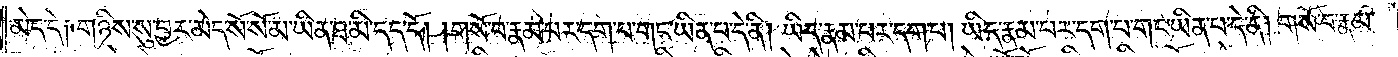མེད་དེ༑ གཉིས་སུ་བྱར་མེད་སོ་སོ་མ་ཡིན་ཐ་མི་དད་དོ། །གསོ་བ་རྣམ་པར་དག་པ་གང་ཡིན་པ་དེ་ནི། ཡིད་རྣམ་པར་དག་པ། ཡིད་རྣམ་པར་དག་པ་གང་ཡིན་པ་དེ་ནི། གསོ་བ་རྣམ་
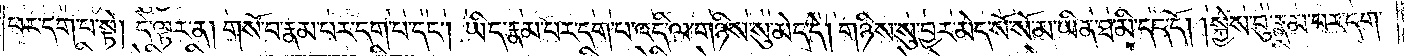པར་དག་པ་སྟེ། དེ་ལྟར་ན། གསོ་བ་རྣམ་པར་དག་པ་དང༌། ཡིད་རྣམ་པར་དག་པ་འདི་ལ་གཉིས་སུ་མེད་དེ། གཉིས་སུ་བྱར་མེད་སོ་སོ་མ་ཡིན་ཐ་མི་དད་དོ། །སྐྱེས་བུ་རྣམ་པར་དག་
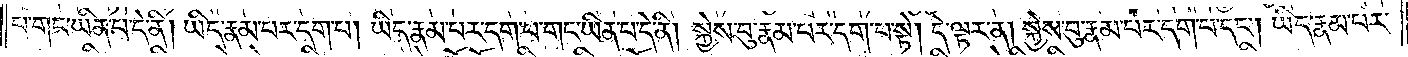པ་གང་ཡིན་པ་དེ་ནི། ཡིད་རྣམ་པར་དག་པ། ཡིད་རྣམ་པར་དག་པ་གང་ཡིན་པ་དེ་ནི། སྐྱེས་བུ་རྣམ་པར་དག་པ་སྟེ། དེ་ལྟར་ན། སྐྱེས་བུ་རྣམ་པར་དག་པ་དང༌། ཡིད་རྣམ་པར་
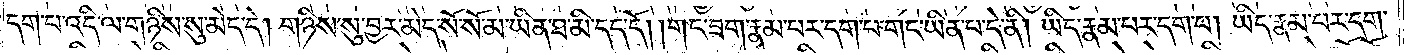དག་པ་འདི་ལ་གཉིས་སུ་མེད་དེ། གཉིས་སུ་བྱར་མེད་སོ་སོ་མ་ཡིན་ཐ་མི་དད་དོ། །གང་ཟག་རྣམ་པར་དག་པ་གང་ཡིན་པ་དེ་ནི། ཡིད་རྣམ་པར་དག་པ། ཡིད་རྣམ་པར་དག་
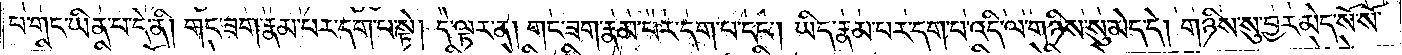པ་གང་ཡིན་པ་དེ་ནི། གང་ཟག་རྣམ་པར་དག་པ་སྟེ། དེ་ལྟར་ན། གང་ཟག་རྣམ་པར་དག་པ་དང༌། ཡིད་རྣམ་པར་དག་པ་འདི་ལ་གཉིས་སུ་མེད་དེ། གཉིས་སུ་བྱར་མེད་སོ་སོ་
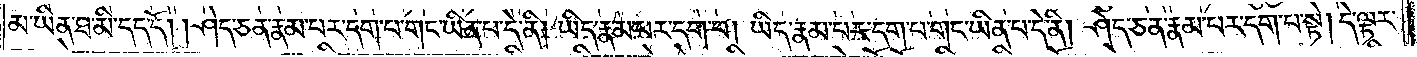མ་ཡིན་ཐ་མི་དད་དོ། །ཤེད་ཅན་རྣམ་པར་དག་པ་གང་ཡིན་པ་དེ་ནི། ཡིད་རྣམ་པར་དག་པ། ཡིད་རྣམ་པར་དག་པ་གང་ཡིན་པ་དེ་ནི། ཤེད་ཅན་རྣམ་པར་དག་པ་སྟེ། དེ་ལྟར་
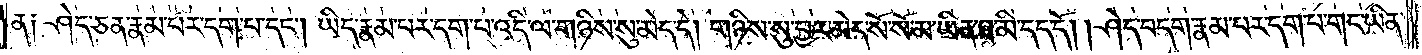ན༑ ཤེད་ཅན་རྣམ་པར་དག་པ་དང༌། ཡིད་རྣམ་པར་དག་པ་འདི་ལ་གཉིས་སུ་མེད་དེ། གཉིས་སུ་བྱར་མེད་སོ་སོ་མ་ཡིན་ཐ་མི་དད་དོ། །ཤེད་བདག་རྣམ་པར་དག་པ་གང་ཡིན་
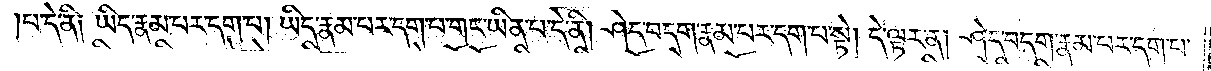པ་དེ་ནི༑ ཡིད་རྣམ་པར་དག་པ། ཡིད་རྣམ་པར་དག་པ་གང་ཡིན་པ་དེ་ནི། ཤེད་བདག་རྣམ་པར་དག་པ་སྟེ། དེ་ལྟར་ན། ཤེད་བདག་རྣམ་པར་དག་པ་
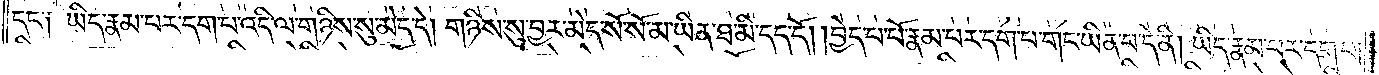དང་༑ ཡིད་རྣམ་པར་དག་པ་འདི་ལ་གཉིས་སུ་མེད་དེ། གཉིས་སུ་བྱར་མེད་སོ་སོ་མ་ཡིན་ཐ་མི་དད་དོ། །བྱེད་པ་པོ་རྣམ་པར་དག་པ་གང་ཡིན་པ་དེ་ནི། ཡིད་རྣམ་པར་དག་པ།
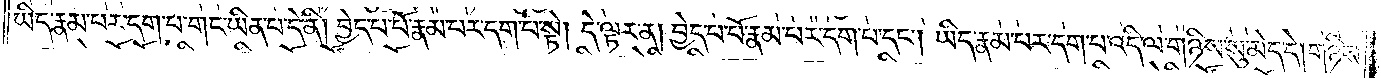ཡིད་རྣམ་པར་དག་པ་གང་ཡིན་པ་དེ་ནི། བྱེད་པ་པོ་རྣམ་པར་དག་པ་སྟེ། དེ་ལྟར་ན། བྱེད་པ་པོ་རྣམ་པར་དག་པ་དང༌། ཡིད་རྣམ་པར་དག་པ་འདི་ལ་གཉིས་སུ་མེད་དེ། གཉིས་
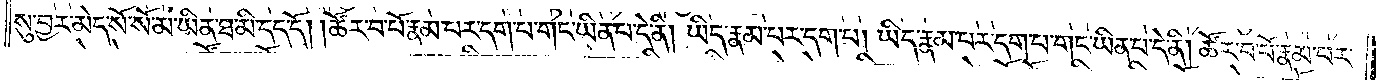སུ་བྱར་མེད་སོ་སོ་མ་ཡིན་ཐ་མི་དད་དོ། །ཚོར་བ་པོ་རྣམ་པར་དག་པ་གང་ཡིན་པ་དེ་ནི། ཡིད་རྣམ་པར་དག་པ། ཡིད་རྣམ་པར་དག་པ་གང་ཡིན་པ་དེ་ནི། ཚོར་བ་པོ་རྣམ་པར་
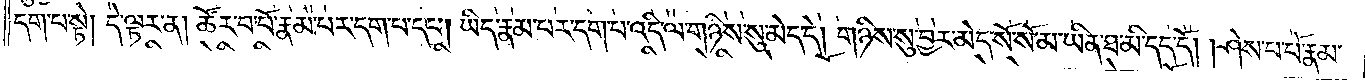དག་པ་སྟེ། དེ་ལྟར་ན། ཚོར་བ་པོ་རྣམ་པར་དག་པ་དང༌། ཡིད་རྣམ་པར་དག་པ་འདི་ལ་གཉིས་སུ་མེད་དེ། གཉིས་སུ་བྱར་མེད་སོ་སོ་མ་ཡིན་ཐ་མི་དད་དོ། །ཤེས་པ་པོ་རྣམ་
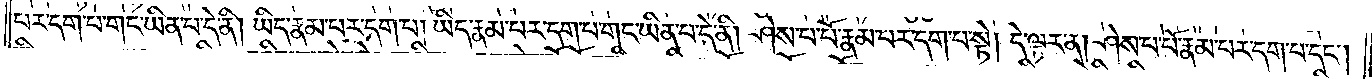པར་དག་པ་གང་ཡིན་པ་དེ་ནི། ཡིད་རྣམ་པར་དག་པ། ཡིད་རྣམ་པར་དག་པ་གང་ཡིན་པ་དེ་ནི། ཤེས་པ་པོ་རྣམ་པར་དག་པ་སྟེ། དེ་ལྟར་ན། ཤེས་པ་པོ་རྣམ་པར་དག་པ་དང༌།
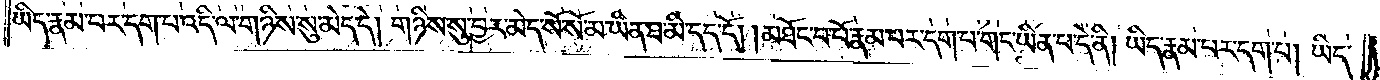ཡིད་རྣམ་པར་དག་པ་འདི་ལ་གཉིས་སུ་མེད་དེ། གཉིས་སུ་བྱར་མེད་སོ་སོ་མ་ཡིན་ཐ་མི་དད་དོ། །མཐོང་བ་པོ་རྣམ་པར་དག་པ་གང་ཡིན་པ་དེ་ནི། ཡིད་རྣམ་པར་དག་པ། ཡིད་
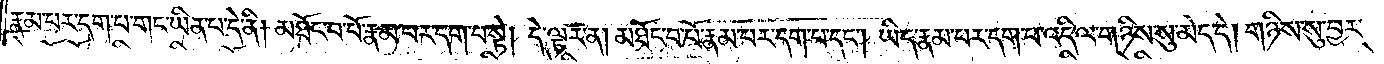རྣམ་པར་དག་པ་གང་ཡིན་པ་དེ་ནི། མཐོང་བ་པོ་རྣམ་པར་དག་པ་སྟེ། དེ་ལྟར་ན། མཐོང་བ་པོ་རྣམ་པར་དག་པ་དང༌། ཡིད་རྣམ་པར་དག་པ་འདི་ལ་གཉིས་སུ་མེད་དེ། གཉིས་སུ་བྱར་
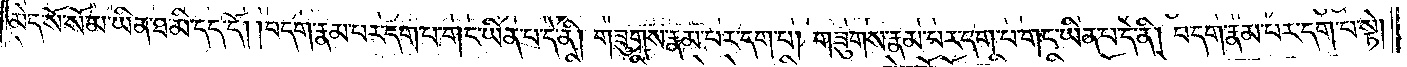མེད་སོ་སོ་མ་ཡིན་ཐ་མི་དད་དོ། །བདག་རྣམ་པར་དག་པ་གང་ཡིན་པ་དེ་ནི། གཟུགས་རྣམ་པར་དག་པ། གཟུགས་རྣམ་པར་དག་པ་གང་ཡིན་པ་དེ་ནི། བདག་རྣམ་པར་དག་པ་སྟེ།
